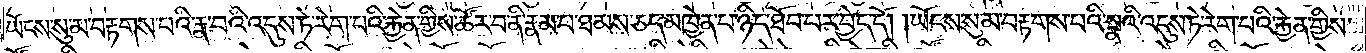ཡོངས་སུ་མ་བརྟགས་པའི་རྣ་བའི་འདུས་ཏེ་རེག་པའི་རྐྱེན་གྱིས་ཚོར་བ་ནི་རྣམ་པ་ཐམས་ཅད་མཁྱེན་པ་ཉིད་ཐོབ་པར་བྱེད་དོ། །ཡོངས་སུ་མ་བརྟགས་པའི་སྣའི་འདུས་ཏེ་རེག་པའི་རྐྱེན་གྱིས་
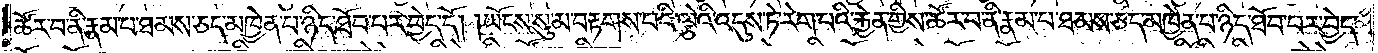ཚོར་བ་ནི་རྣམ་པ་ཐམས་ཅད་མཁྱེན་པ་ཉིད་ཐོབ་པར་བྱེད་དོ། །ཡོངས་སུ་མ་བརྟགས་པའི་ལྕེའི་འདུས་ཏེ་རེག་པའི་རྐྱེན་གྱིས་ཚོར་བ་ནི་རྣམ་པ་ཐམས་ཅད་མཁྱེན་པ་ཉིད་ཐོབ་པར་བྱེད་
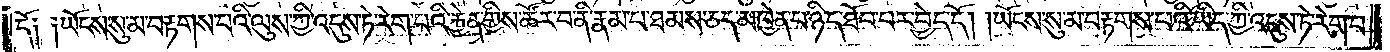དོ། །ཡོངས་སུ་མ་བརྟགས་པའི་ལུས་ཀྱི་འདུས་ཏེ་རེག་པའི་རྐྱེན་གྱིས་ཚོར་བ་ནི་རྣམ་པ་ཐམས་ཅད་མཁྱེན་པ་ཉིད་ཐོབ་པར་བྱེད་དོ། །ཡོངས་སུ་མ་བརྟགས་པའི་ཡིད་ཀྱི་འདུས་ཏེ་རེག་པ་
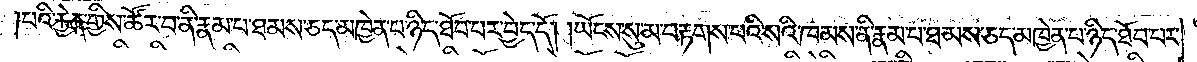པའི་རྐྱེན་གྱི་ཚོར་བ་ནི་རྣམ་པ་ཐམས་ཅད་མཁྱེན་པ་ཉིད་ཐོབ་པར་བྱེད་དོ། །ཡོངས་སུ་མ་བརྟགས་པའི་སའི་ཁམས་ནི་རྣམ་པ་ཐམས་ཅད་མཁྱེན་པ་ཉིད་ཐོབ་པར་
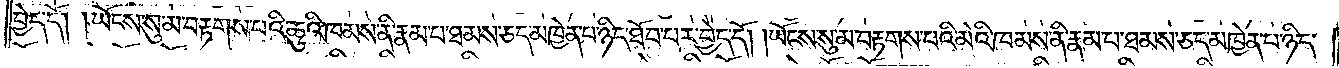བྱེད་དོ། །ཡོངས་སུ་མ་བརྟགས་པའི་ཆུའི་ཁམས་ནི་རྣམ་པ་ཐམས་ཅད་མཁྱེན་པ་ཉིད་ཐོབ་པར་བྱེད་དོ། །ཡོངས་སུ་མ་བརྟགས་པའི་མེའི་ཁམས་ནི་རྣམ་པ་ཐམས་ཅད་མཁྱེན་པ་ཉིད་
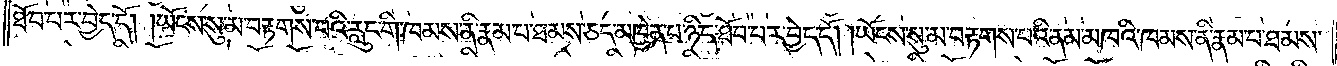ཐོབ་པར་བྱེད་དོ། །ཡོངས་སུ་མ་བརྟགས་པའི་རླུང་གི་ཁམས་ནི་རྣམ་པ་ཐམས་ཅད་མཁྱེན་པ་ཉིད་ཐོབ་པར་བྱེད་དོ། །ཡོངས་སུ་མ་བརྟགས་པའི་ནམ་མཁའི་ཁམས་ནི་རྣམ་པ་ཐམས་
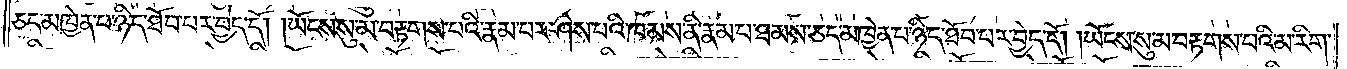ཅད་མཁྱེན་པ་ཉིད་ཐོབ་པར་བྱེད་དོ། ཡོངས་སུ་མ་བརྟགས་པའི་རྣམ་པར་ཤེས་པའི་ཁམས་ནི་རྣམ་པ་ཐམས་ཅད་མཁྱེན་པ་ཉིད་ཐོབ་པར་བྱེད་དོ། །ཡོངས་སུ་མ་བརྟགས་པའི་མ་རིག་
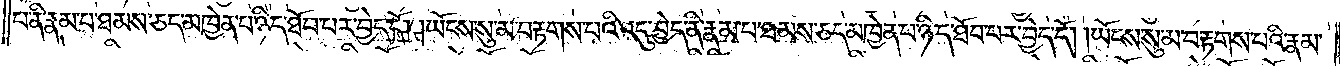པ་ནི་རྣམ་པ་ཐམས་ཅད་མཁྱེན་པ་ཉིད་ཐོབ་པར་བྱེད་དོ། །ཡོངས་སུ་མ་བརྟགས་པའི་འདུ་བྱེད་ནི་རྣམ་པ་ཐམས་ཅད་མཁྱེན་པ་ཉིད་ཐོབ་པར་བྱེད་དོ། །ཡོངས་སུ་མ་བརྟགས་པའི་རྣམ་
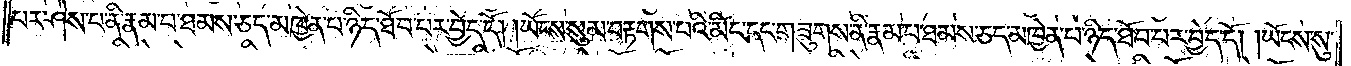པར་ཤེས་པ་ནི་རྣམ་པ་ཐམས་ཅད་མཁྱེན་པ་ཉིད་ཐོབ་པར་བྱེད་དོ། །ཡོངས་སུ་མ་བརྟགས་པའི་མིང་དང་གཟུགས་ནི་རྣམ་པ་ཐམས་ཅད་མཁྱེན་པ་ཉིད་ཐོབ་པར་བྱེད་དོ། །ཡོངས་སུ་
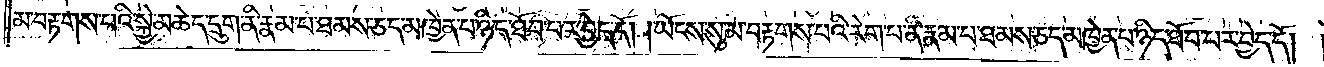མ་བརྟགས་པའི་སྐྱེ་མཆེད་དྲུག་ནི་རྣམ་པ་ཐམས་ཅད་མཁྱེན་པ་ཉིད་ཐོབ་པར་བྱེད་དོ། །ཡོངས་སུ་མ་བརྟགས་པའི་རེག་པ་ནི་རྣམ་པ་ཐམས་ཅད་མཁྱེན་པ་ཉིད་ཐོབ་པར་བྱེད་དོ། །
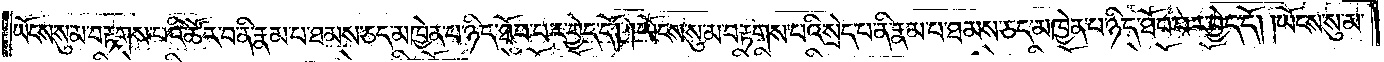ཡོངས་སུ་མ་བརྟགས་པའི་ཚོར་བ་ནི་རྣམ་པ་ཐམས་ཅད་མཁྱེན་པ་ཉིད་ཐོབ་པར་བྱེད་དོ། །ཡོངས་སུ་མ་བརྟགས་པའི་སྲེད་པ་ནི་རྣམ་པ་ཐམས་ཅད་མཁྱེན་པ་ཉིད་ཐོབ་པར་བྱེད་དོ། །ཡོངས་སུ་མ་
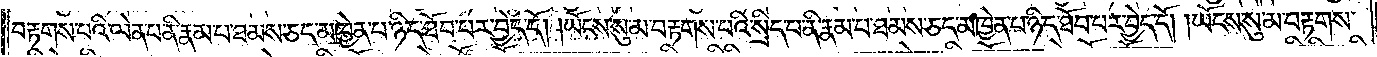བརྟགས་པའི་ལེན་པ་ནི་རྣམ་པ་ཐམས་ཅད་མཁྱེན་པ་ཉིད་ཐོབ་པར་བྱེད་དོ། །ཡོངས་སུ་མ་བརྟགས་པའི་སྲིད་པ་ནི་རྣམ་པ་ཐམས་ཅད་མཁྱེན་པ་ཉིད་ཐོབ་པར་བྱེད་དོ། །ཡོངས་སུ་མ་བརྟགས་
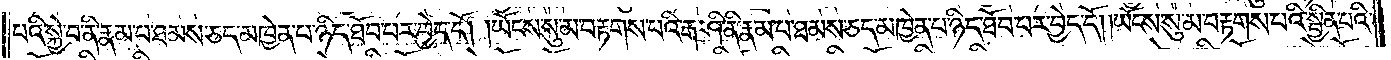པའི་སྐྱེ་བ་ནི་རྣམ་པ་ཐམས་ཅད་མཁྱེན་པ་ཉིད་ཐོབ་པར་བྱེད་དོ། །ཡོངས་སུ་མ་བརྟགས་པའི་རྒ་ཤི་ནི་རྣམ་པ་ཐམས་ཅད་མཁྱེན་པ་ཉིད་ཐོབ་པར་བྱེད་དོ། །ཡོངས་སུ་མ་བརྟགས་པའི་སྦྱིན་པའི་
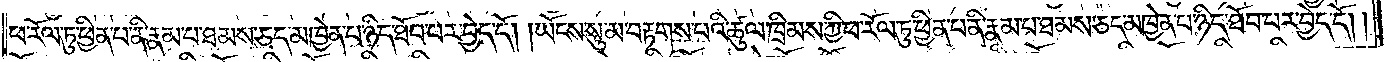ཕ་རོལ་ཏུ་ཕྱིན་པ་ནི་རྣམ་པ་ཐམས་ཅད་མཁྱེན་པ་ཉིད་ཐོབ་པར་བྱེད་དོ། །ཡོངས་སུ་མ་བརྟགས་པའི་ཚུལ་ཁྲིམས་ཀྱི་ཕ་རོལ་ཏུ་ཕྱིན་པ་ནི་རྣམ་པ་ཐམས་ཅད་མཁྱེན་པ་ཉིད་ཐོབ་པར་བྱེད་དོ༎
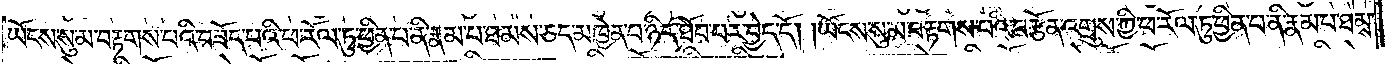ཡོངས་སུ་མ་བརྟགས་པའི་བཟོད་པའི་ཕ་རོལ་ཏུ་ཕྱིན་པ་ནི་རྣམ་པ་ཐམས་ཅད་མཁྱེན་པ་ཉིད་ཐོབ་པར་བྱེད་དོ། །ཡོངས་སུ་མ་བརྟགས་པའི་བརྩོན་འགྲུས་ཀྱི་ཕ་རོལ་ཏུ་ཕྱིན་པ་ནི་རྣམ་པ་ཐམས་
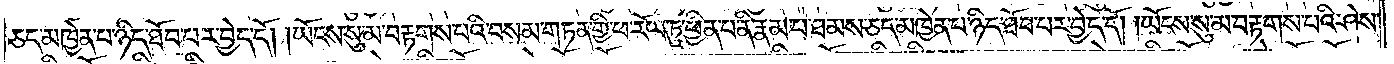ཅད་མཁྱེན་པ་ཉིད་ཐོབ་པར་བྱེད་དོ། །ཡོངས་སུ་མ་བརྟགས་པའི་བསམ་གཏན་གྱི་ཕ་རོལ་ཏུ་ཕྱིན་པ་ནི་རྣམ་པ་ཐམས་ཅད་མཁྱེན་པ་ཉིད་ཐོབ་པར་བྱེད་དོ། །ཡོངས་སུ་མ་བརྟགས་པའི་ཤེས་
